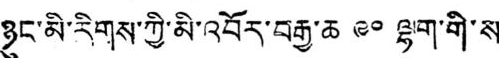ཉུང་མི་རིགས་ཀྱི་མི་འབོར་བརྒྱ་ཆ ༩༠ ལྷག་གི་ས
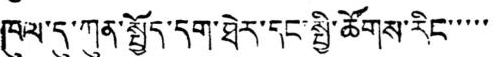ཁུལ་དུ་ཀུན་སྤྱོད་དག་ཐེར་དང་སྤྱི་ཚོགས་རིང་་་་་་
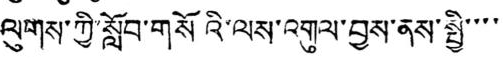ལུགས་ཀྱི་སློབ་གསོའི་ལས་འགུལ་བྱས་ནས་སྤྱི་་་་
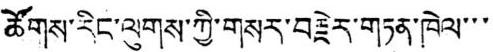ཚོགས་རིང་ལུགས་ཀྱི་གསར་བརྗེར་གཏན་ཁེལ་་་་
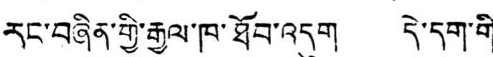རང་བཞིན་གྱི་རྒྱལ་ཁ་ཐོབ་འདུག དེ་དག་གི་
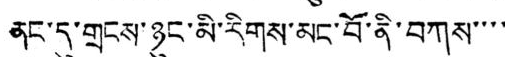ནང་དུ་གྲངས་ཉུང་མི་རིགས་མང་བོ་ནི་བཀས་་་་
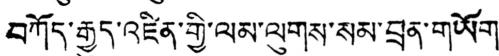བཀོད་རྒྱུད་འཛིན་གྱི་ལམ་ལུགས་སམ་བྲན་གཡོག་
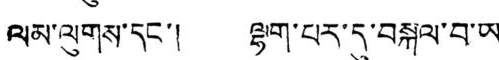ལམ་ལུགས་དང་། ལྷག་པར་དུ་བསྐལ་བ་ཡ་
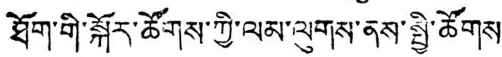ཐོག་གི་སྐོར་ཚོགས་ཀྱི་ལམ་ལུགས་ནས་སྤྱི་ཚོགས་
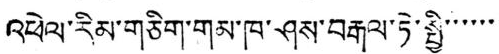འཕེལ་རིམ་གཅིག་གམ་ཁ་ཤས་བརྒལ་ཏེ་སྤྱི་་་་་་་
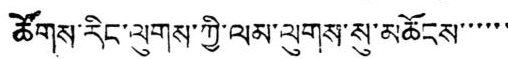ཚོགས་རིང་ལུགས་ཀྱི་ལམ་ལུགས་སུ་མཆོངས་་་་་་
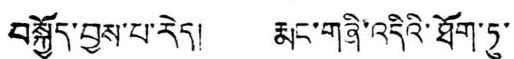བསྐྱོད་བྱས་པ་རེད། རྨང་གཞི་འདིའི་ཐོག་ཏུ་
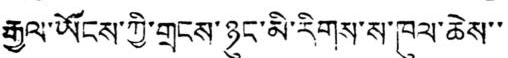རྒྱལ་ཡོངས་ཀྱི་གྲངས་ཉུང་མི་རིགས་ས་ཁུལ་ཆེས་་
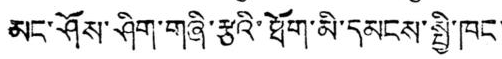མང་ཤོས་ཤིག་གཞི་རྩའི་ཐོག་མི་དམངས་སྤྱི་ཁང་
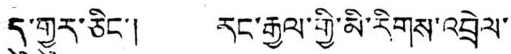དུ་གྱུར་ཅིང་། རང་རྒྱལ་གྱི་མི་རིགས་འབྲེལ་
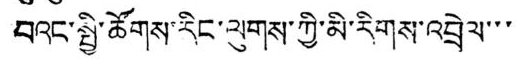བའང་སྤྱི་ཚོགས་རིང་ལུགས་ཀྱི་མི་རིགས་འབྲེལ་་་
